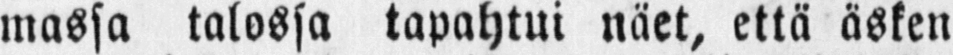massa talossa tapahtui näet, että äsken
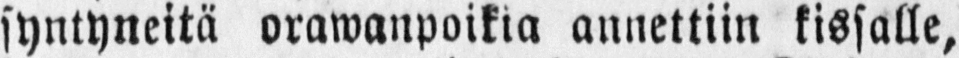syntyneitä orawanpoikia annettiin kissalle,
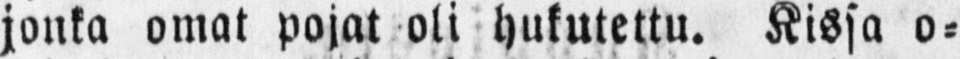jonka omat pojat oli hukutettu. Kissa o-
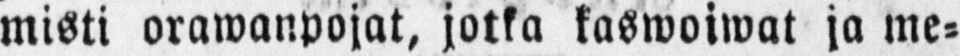misti orawanpojat, jotka kaswoiwat ja me-
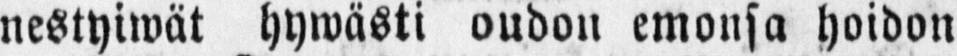nestyiwät hywästi oudon emonsa hoidon
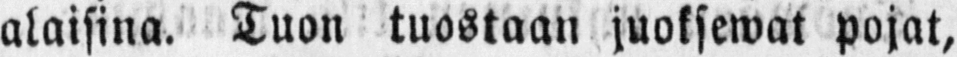alaisina. Tuon tuostaan juoksewat pojat,
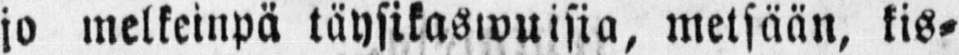jo melkeinpä täysikaswuisia, metsään, kis-
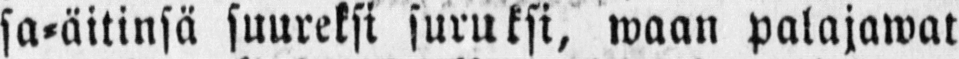sa-äitinsä suureksi suruksi, waan palajawat
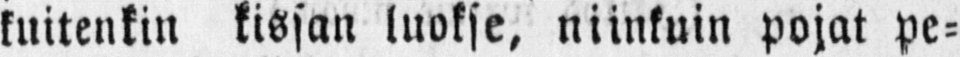kuitenkin kissan luokse, niinkuin pojat pe-
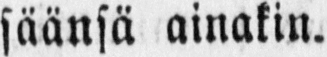säänsä ainakin.
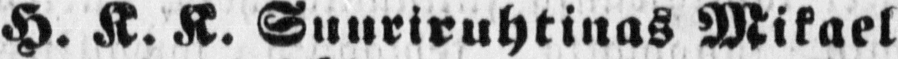H. K. K. Suuriruhtinas Mikael
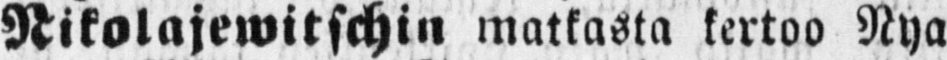Nikolajewitschin matkasta kertoo Nya
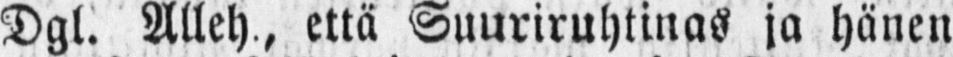Dgl. Alleh., että Suuriruhtinas ja hänen
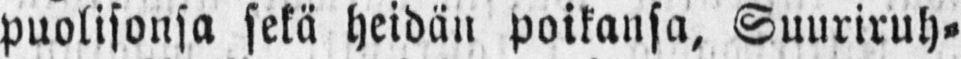puolisonsa sekä heidän poikansa, Suuriruh-
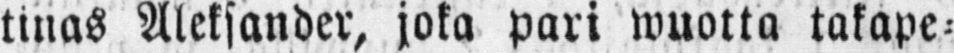tinas Aleksander, joka pari wuotta takape-
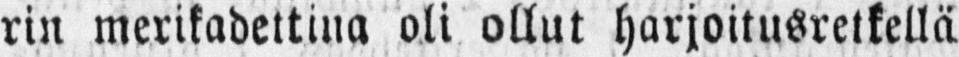rin merikadettina oli ollut harjoitusretkellä
